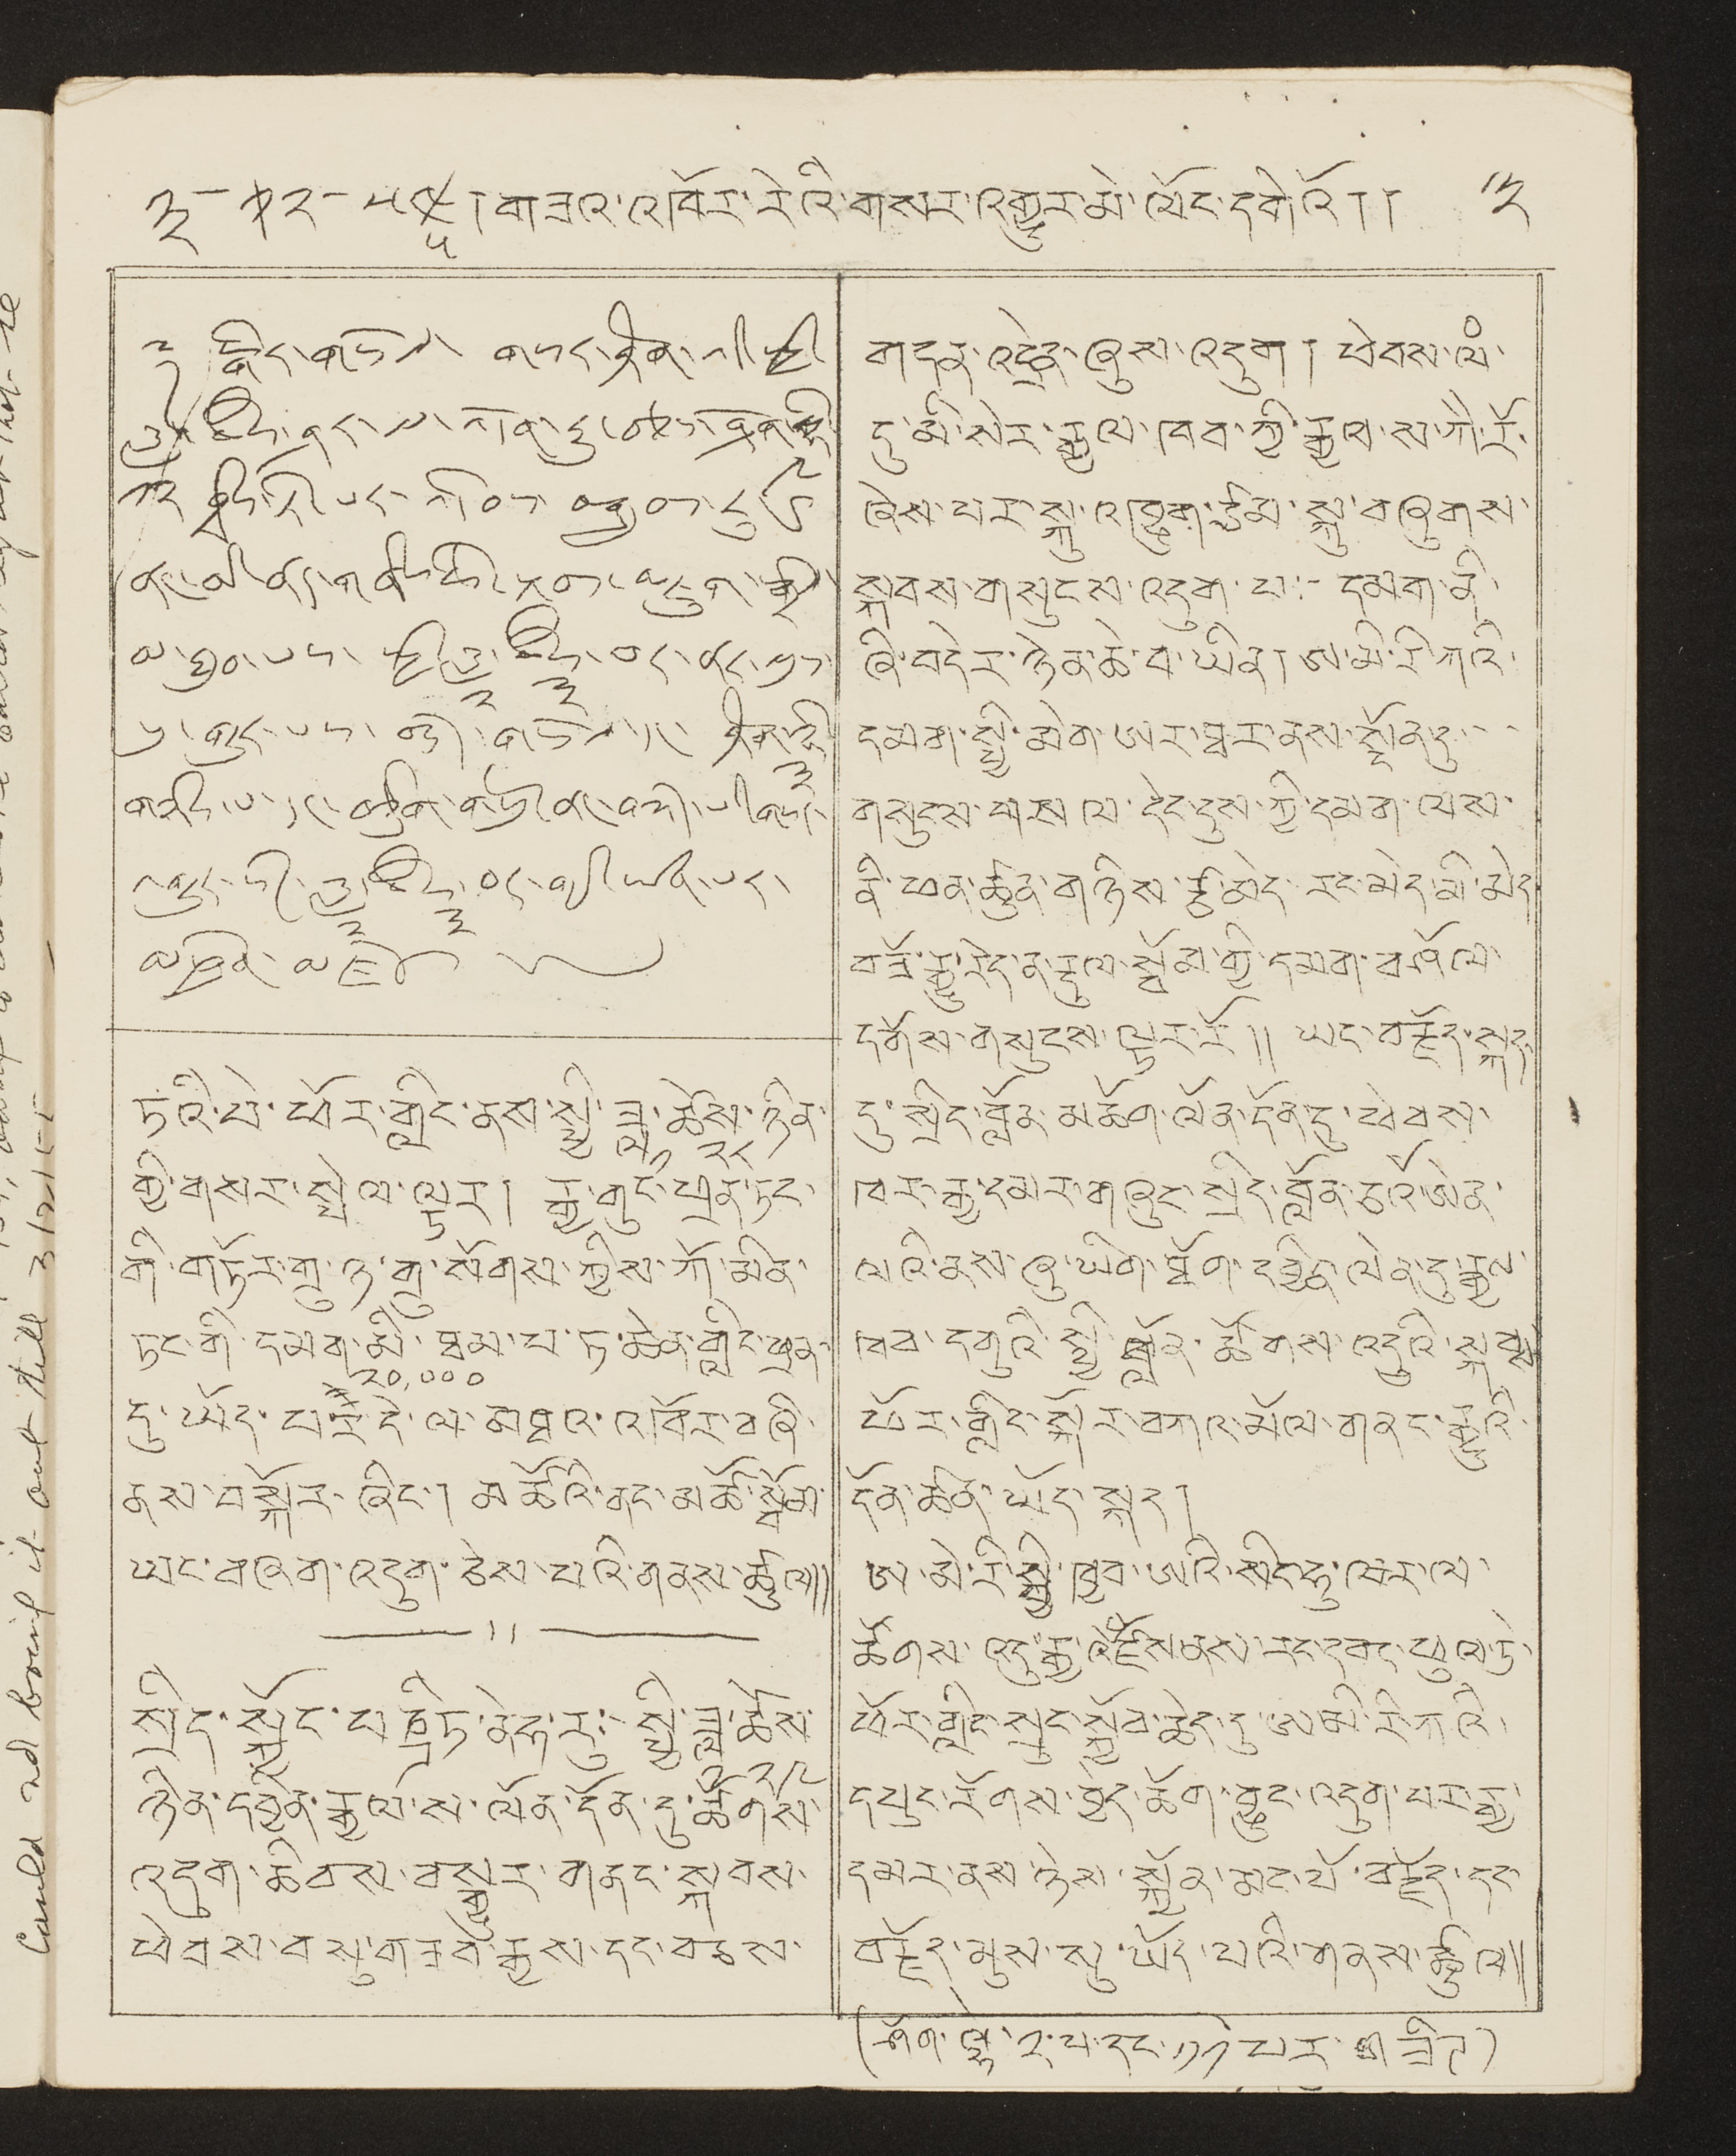༣- ༡༢-༥༤
༥
། གཟའ་འཁོར་རེའི་གསར་འགྱུར་མེ་ལོང་དགེའོ།། ༣
༈ སྒེར་གསོལ་གསར་ཤོག་འདི་སྤྱི་
ཟླ་
༡༢
ཚེས་ཤར་ལ་འདོན་རྒྱུ་བཅས་ཤོག་ལྷེ་
༩
བྲིས་ཏེ་པར་འདེབས་བསྒྲུབས་རུངས་
ནང་མི་ནད་གཞིས་ཚེ་སྐབས་མཇུག་སྒྲིལ་
མ་ཐུབ་པར་སྤྱི་
༢
ཚེས་
༣
བར་ནར་ལུས་
པུ་གྱུར་པར་བཟོད་གསོལ་དང་ཤོག་ལྷེ་
༣
གཉིས་པ་དང་བཅུག་གསུམ་ནང་བཟོད་གསར་
འགྱུར་སོགས་ཟླ་
༢
ཚེས་
༣
བར་གྱི་ཡིན་པར་
མཁྱེན་མཛོད།
ཏའི་པེ་ཕོར་གླིང་ནས་སྤྱི་ཟླ་
༡
ཚེས་
༢༨
ཉིན་
གྱི་གསར་སྤེལ་ལྟར། རྒྱ་གུང་ཕྲན་ཏང་
གི་གཏོར་གྲུ་ཉ་གྲུ་སོགས་ཀྱིས་ཀོ་མིན་
ཏང་གི་དམག་མི་
༢༠,༠༠༠
ཐམ་པ་ཏ་ཆེན་གླིང་ཕྲན་
དུ་ཡོད་པར་དེ་ལ་མཐའ་འཁོར་བཞི་
ནས་བསྐོར་ཞིང་།མཚོའི་ནང་མཚོ་སྦོམ་
ཡང་བཞག་འདུག་ཅེས་པའི་གནས་ཚུལ།།
སྲིད་སྐྱོང་པཎྜིཏ་ནེཧ་རུ་སྤྱི་ཟླ་
༡
ཚེས་
༢༩
ཉིན་དབྱིན་རྒྱལ་ས་ལོན་དོན་དུ་ཚོགས་
འདུག་ཆིབས་བསྒྱུར་གནང་སྐབས་
ཕེབས་བསུ་གཟབ་རྒྱས་དང་བཅས་
གདན་འདྲེན་ཞུས་འདུག།། ཕེབས་ལཾ་
དུ་མི་སེར་རྒྱལ་ཁབ་ཀྱི་རྒྱལ་ས་ཀཻ་རོ་
ཞེས་པར་སྐུ་འཁྱུག་ཙམ་སྐུ་བཞུགས་
སྐབས་གསུངས་འདུག་པ་-བཞུགས་
ཞི་བདེར་ཉེན་ཆེ་བ་ཡིན། ཨ་མི་རི་ཀའི་
དམག་སྤྱི་མེག་ཨར་ཐར་ནས་སྔོན་དུ་
གསུངས་གསལ་དེང་དུས་ཀྱི་དམག་ལས་
ནི་ཕན་ཚུལ་གཉིས་རྩ་མེད་རང་མེད་མི་མེད
བཟོ་རྒྱུ་རེད་ན་རྡུལ་སྦོམ་གྱི་དམག་བཤོལ་
དགོས་གསུངས་ལྟར་རོ།། ཡང་བརྗོད་སྐད་
དུ་སྲིད་བློན་མཆོག་ལོན་དོན་དུ་ཕེབས་
ཁར་རྒྱ་དམར་གཞུང་སྲིད་བློན་ཅའོ་ཨེན་
ལའི་ནས་ཞུ་ཡིག་ཐོག་དབྱིན་ལེན་དུ་རྒྱས་
ཁབ་དགུའི་སྤྱི་བློན་ཚོགས་འདུའི་སྐབྶ་
ཕོར་གླིང་སྐོར་བཀའ་མོལ་གནང་རྒྱུའི་
དོན་ཚན་ཡོད་སྐད།
་མེ་རི་སྤྱི་ཁྱབ་ཨའི་སིང་ཧུ་ལར་ལ་
ཚོགས་འདུ་རྒྱ་འཛོཾས་ནས་རང་དབང་ཕུལ་ཏེ་
ཕོར་གླིང་སྲུང་སྐྱོབ་ཆེད་དུ་ཨ་མི་རི་ཀའི་
དཔུང་རོགས་བྱེད་ཆོག་བྱུང་འདུག་པར་རྒྱ་
དམར་ནས་ཉེས་སྐྱོན་མང་པོ་བརྗོད་དང་
བརྗོད་མུས་སུ་ཡོད་པའི་གནས་ཚུལ།།
( ཤོག་ལྷེ་༢་པ་དང་༡༡ པར་གཟིཌ )
could not bring it out till 3/2/55
